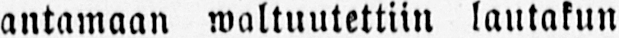antamaan waltuutettiin lautakun
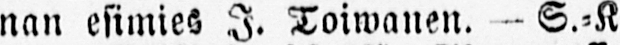nan esimies I. Toiwanen. - S.-K
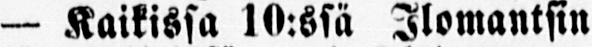— Kaikissa 10:ssa Ilomantsin
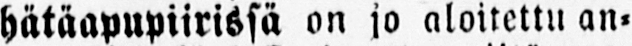hätäapupiirissä on jo aloitettu an-
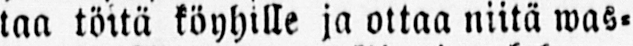taa töitä köyhille ja ottaa niitä was-
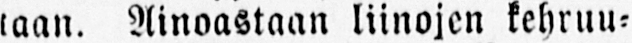taan. Ainoastaan liinojen kehruu-
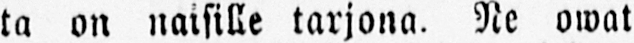ta on naisille tarjona. Ne owat
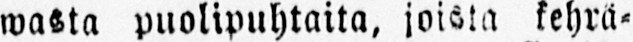wasta puolipuhtaita, joista kehrä-
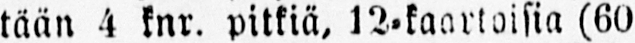tään 4 knr. pitkiä, 12-kaartoisia (60
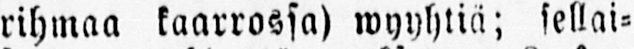rihmaa kaarrossa) wyyhtiä; sellai-
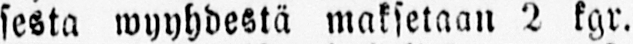sesta wyyhdestä maksetaan 2 kgr.
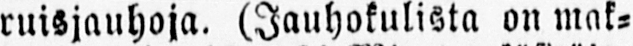ruisjauhoja. (Jauhokulista on mak-
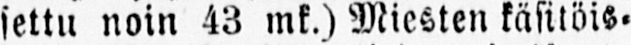settu noin 43 mk.) Miesten käsitöis-
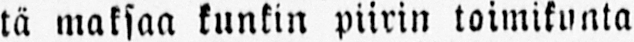tä maksan kunkin piirin toimikunta
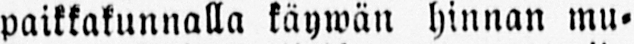paikkakunnalla käywän hinnan mu-
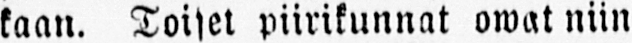kaan. Toiset piirikunnat owat niin
